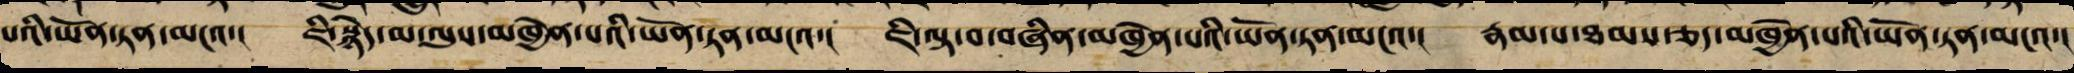པའི་ཡོན་ཏན་མངའ་། ཇི་སྙེད་མ་ལུས་མཁྱེན་པའི་ཡོན་ཏན་མངའ་། ཇི་ལྟ་བ་བཞིན་མཁྱེན་པའི་ཡོན་ཏན་མངའ་། རྣམ་པ་ཐམས་ཅད་མཁྱེན་པའི་ཡོན་ཏན་མངའ་།
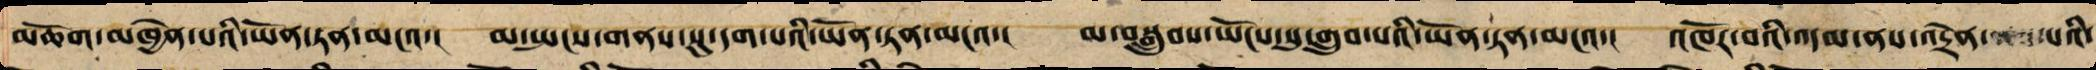མཆོག་མཁྱེན་པ་ཡི་ཡོན་ཏན་མངའ་། མ་སྤངས་གནས་སུ་དག་པའི་ཡོན་ཏན་མངའ་། མ་བསྒྲུབས་ཡོངས་སུ་གྲུབ་པའི་ཡོན་ཏན་མངའ་། འཁོར་བའི་འདམ་ནས་འདྲེན་པའི་
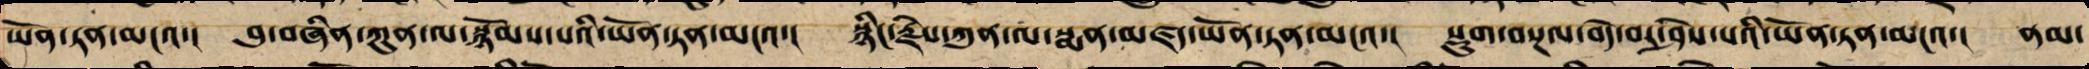ཡོན་ཏན་མངའ་། བུ་བཞིན་ཀུན་ལ་སྙོམས་པའི་ཡོན་ཏན་མངའ་། སྙིང་རྗེ་ཀུན་ལ་སྨན་མཛད་ཡོན་ཏན་མངའ་། སྡུག་བསྔལ་བདེ་བར་ཤེས་པའི་ཡོན་ཏན་མངའ་། ནམ་
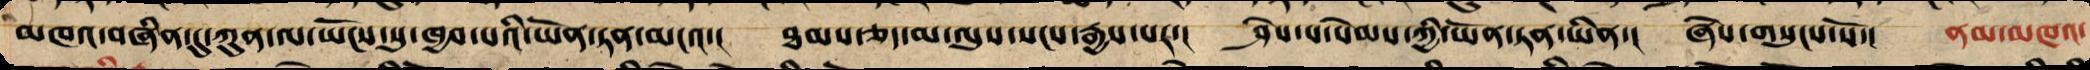མཁའ་བཞིན་དུ་ཀུན་ལ་ཡོངས་སུ་ཁྱབ་པའི་ཡོན་ཏན་མངའ་། ཐམས་ཅད་མ་ལུས་སངས་རྒྱས་པར་། ཤེས་པ་སེམས་ཀྱི་ཡོན་ཏན་ཡིན་། ཞེས་གསུངས་སོ་། ནམ་མཁའ་
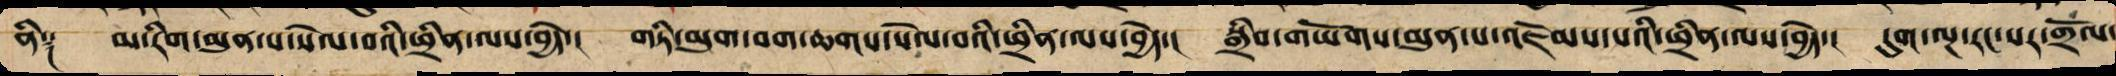ནི༑ མ་རིག་མུན་པ་སེལ་བའི་ཕྲིན་ལས་བྱེད་། གཏི་མུག་བག་ཆགས་སེལ་བའི་ཕྲིན་ལས་བྱེད་། སྒྲིབ་གཡོགས་མུན་པ་འཇོམས་པའི་ཕྲིན་ལས་བྱེད་། དུག་ལྔ་རང་སར་གྲོལ་
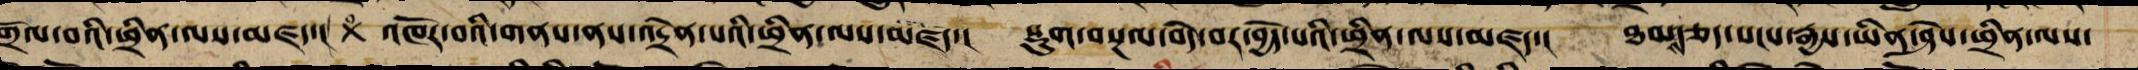གྲོལ་བའི་ཕྲིན་ལས་མཛད་། ༝ འཁོར་བའི་གནས་ནས་འདྲེན་པའི་ཕྲིན་ལས་མཛད་། སྡུག་བསྔལ་བདེ་བར་བྱེད་པའི་ཕྲིན་ལས་མཛད་། ཐམས་ཅད་སངས་རྒྱས་ཡིན་ཤེས་ཕྲིན་ལས་
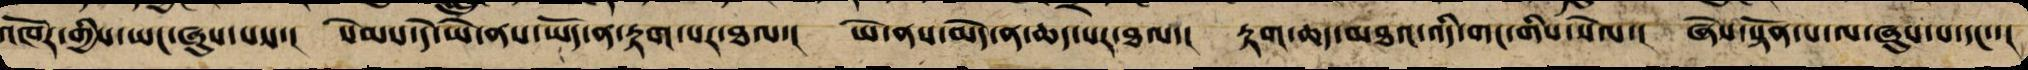འཁོར་གྱིས་ཡང་ཞུས་པས་། སེམས་དེ་ཡེ་ནས་ཡོད་ན་རྟག་པར་ཐལ་། ཡེ་ནས་མེད་ན་ཆད་པར་ཐལ་། རྟག་ཆད་མཐའ་འདི་གང་གིས་སེལ་། ཞེས་སྟོན་པ་ལ་ཞུས་པ་དང་་།
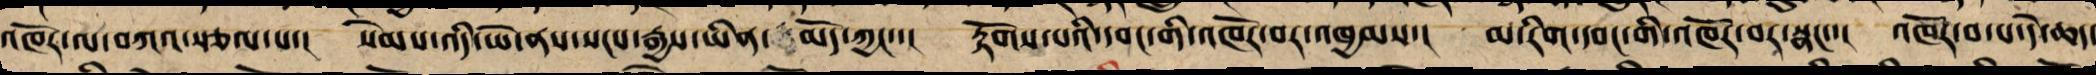འཁོར་ལ་བཀའ་སྩལ་པ་། སེམས་འདི་ཡེ་ནས་སངས་རྒྱས་ཡིན་མོད་ཀྱང་་། རྟོག་པའི་དབང་གིས་འཁོར་བར་འཁྱམས་། མ་རིག་དབང་གིས་འཁོར་བར་སྣང་་། འཁོར་བ་པདེ་ཆད་
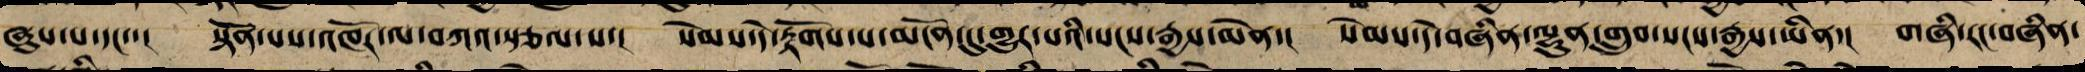ཞུས་པ་དང་་། སྟོན་པས་འཁོར་ལ་བཀའ་སྩལ་པ་། སེམས་དེ་རྟོགས་པ་མངོན་དུ་གྱུར་པའི་སངས་རྒྱས་མེན་། སེམས་དེ་གཞི་་ལྷུན་གྲུབ་སངས་རྒྱས་ཡིན་། གཞི་རང་བཞིན་
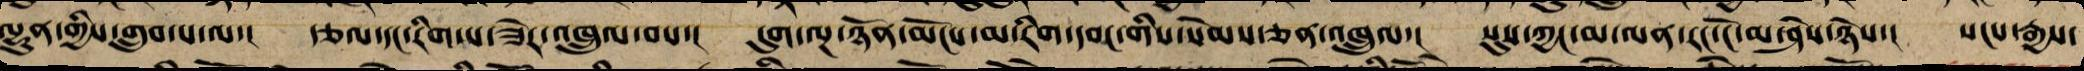ལྷུན་གྱིས་གྲུབ་པ་ལ་། རྩལ་དང་རིག་པ་ཟེར་འཁྲུལ་བས་། དུག་ལྔ་ཉོན་མོངས་མ་རིག་དབང་གིས་སེམས་ཅན་འཁྲུལ་། སུས་ཀྱང་མ་ལན་རང་ངོ་མ་ཤེས་ཉེས་། སངས་རྒྱས་
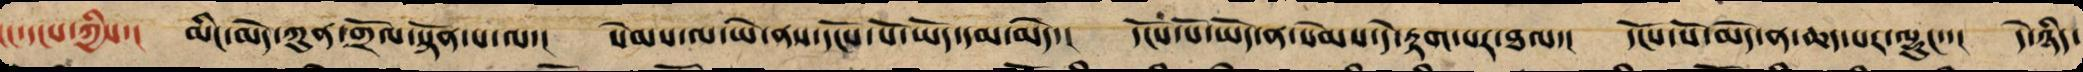ངང་དངས་ཀྱིས་། མིང་མེད་ཀུན་གྲོལ་སྟོན་པ་ལ་། སེམས་ལ་ཡེ་ནས་དངོས་པོ་ཡོད་དམ་མེད་། དངོས་པོ་ཡོད་ན་སེམས་དེ་རྟག་པར་ཐལ་། དངོས་པོ་མེད་ན་ཆད་པར་ལྷུང་་། དེ་ཉིད་
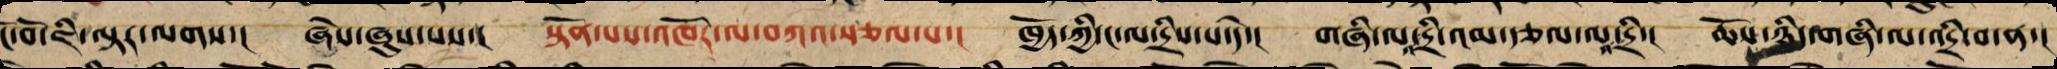ངོ་བོ་ཇི་ལྟར་ལགས་། ཞེས་ཞུས་པས་། སྟོན་པས་འཁོར་ལ་བཀའ་སྩལ་པ་། ཁྱོད་ཀྱིས་ང་ལ་དྲིས་པ་ནི་། གཞི་ལ་འདྲི་འམ་རྩལ་ལ་འདྲི་། ཆོས་ཉིད་གཞི་ལ་འདྲི་བ་ན་།
